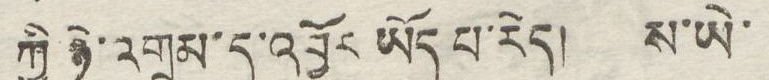ཀྱི ཉེ་འགྲམ་དུ་འབྱོར ཡོད་པ་རེད། ས་ཡེ་
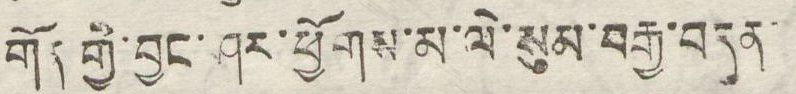གོན་གྱི་བྱང་ཤར་ཕྱོགས་མ་ལེ་སུམ་བརྒྱ་བདུན་
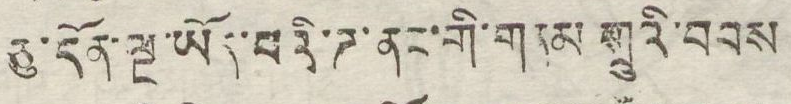ཅུ་དོན་ལྔ་ཡོད་པའི་ཌ་ནང་གི་གནམ གྲུའི་བབས
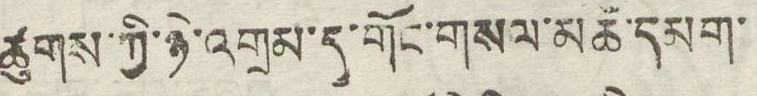ཚུགས་ཀྱི་ཉེ་འགྲམ་དུ་གོང་གསལ་མཚོ་དམག་
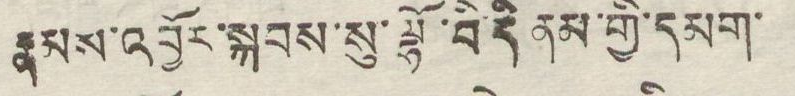རྣམས་འབྱོར་སྐབས་སུ་ལྷོ་བི་དི ནམ་གྱི་དམག་
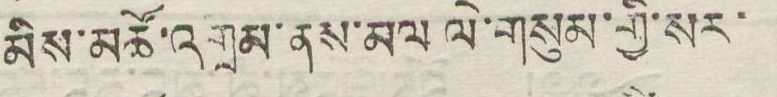མིས་མཚོ་འགྲམ་ནས་མལ ལེ་གསུམ་གྱི་སར་
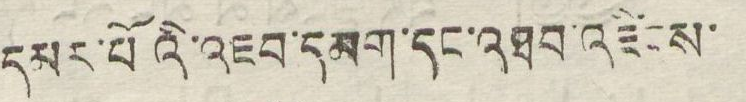དམར་པོའི་འཇབ་དམག་དང་འཐབ་འཛིངས་
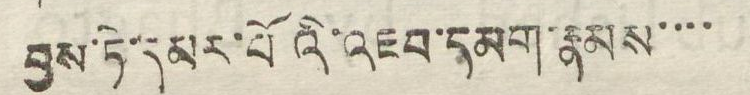བྱས་ཏེ་དམར་པོའི་འཇབ་དམག་རྣམས་་་
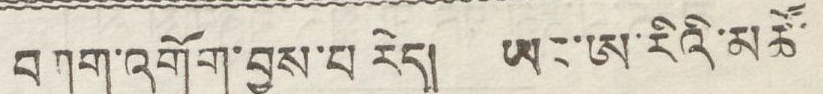བཀག་འགོག་བྱས་པ་རེད། ཡར་ཨ་རིའི་མཚོ་
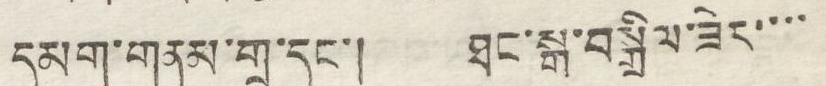དམག་གནམ་གྲུ་དང་། ཐང་སྒ་བསྒྲིལ་ཟེར་་་་
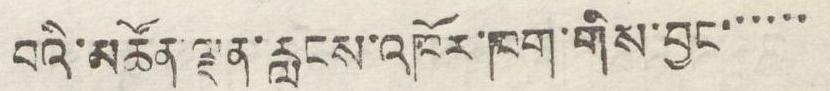བའི་མཚོན་ལྡན་རླངས་འཁོར་ཁག་གིས་བྱང་་་་་་
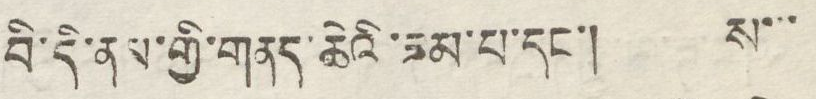བི་དི་ནམ་གྱི་གནད་ཆེའི་ཟམ་པ་དང་། ས་་
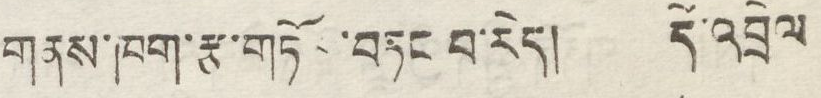གནས་ཁག་རྩ་གཏོར་བཏང་བ་རེད། དེ་འབྲེལ
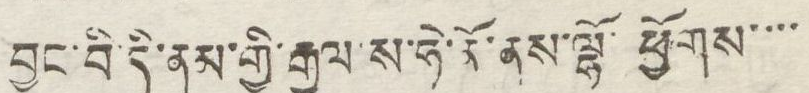བྱང་བི་དི་ནམ་གྱི་རྒྱལ་ས་ཧེ་ནོ་ནས་ལྷོ་ཕྱོགས་་་་་
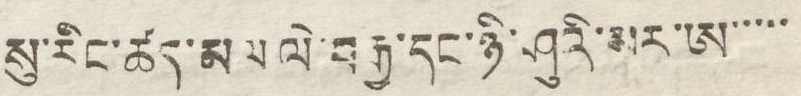སུ་རིང་ཚད་མལ ལེ་བརྒྱ་དང་ཉི་ཤུའི་སར་ཨ་་་་་
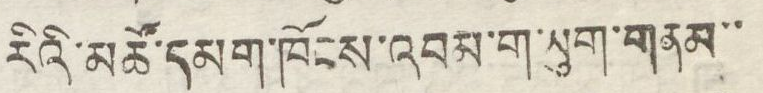རིའི་མཚོ་དམག་ཁོངས་འབམ་གཡུག་གནམ་་
